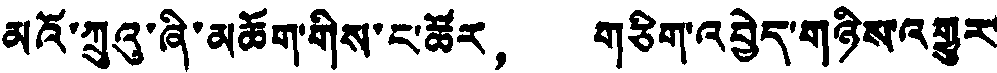མའོ་ཀྲུའུ་ཞི་མཆོག་གིས་ང་ཚོར， གཅིག་འབྱེད་གཉིས་འགྱུར་
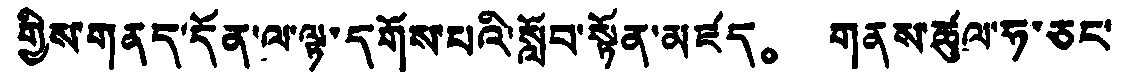གྱིས་གནད་དོན་ལ་ལྟ་དགོས་པའི་སློབ་སྟོན་མཛད。 གནས་ཚུལ་ཧ་ཅང་
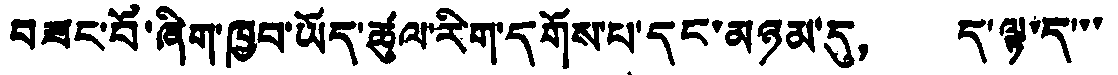བཟང་བོ་ཞིག་ཁྱབ་ཡོད་ཚུལ་རིག་དགོས་པ་དང་མཉམ་དུ， ད་ལྟ་ད་་་
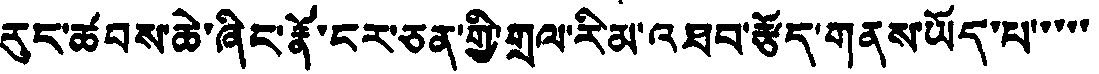རུང་ཚབས་ཆེ་ཞིང་རྣོ་ངར་ཅན་གྱི་གྲལ་རིམ་འཐབ་རྩོད་གནས་ཡོད་པ་་་་་་
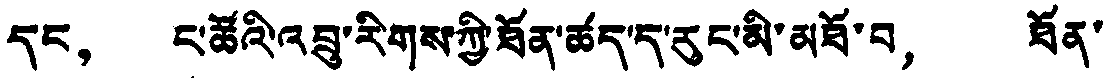དང， ང་ཚོའི་འབྲུ་རིགས་ཀྱི་ཐོན་ཚད་ད་རུང་མི་མཐོ་བ， ཐོན་
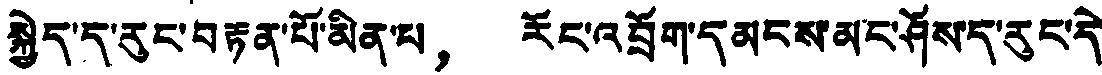སྐྱེད་ད་རུང་བརྟན་པོ་མིན་པ， རོང་འབྲོག་དམངས་མང་ཤོས་ད་རུང་དེ་
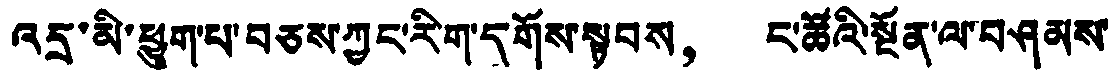འདྲ་མི་ཕྱུག་པ་བཅས་ཀྱང་རིག་དགོས་སྟབས， ང་ཚོའི་སྔོན་ལ་བཤམས་
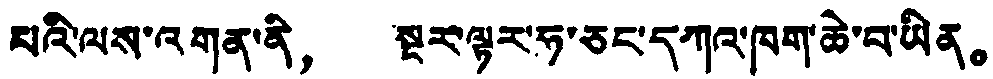པའི་ལས་འགན་ནི， སྔར་ལྟར་ཧ་ཅང་དཀའ་ཁག་ཆེ་བ་ཡིན。
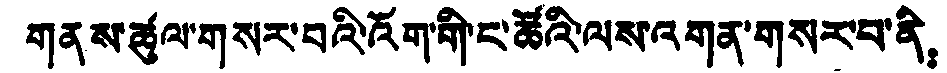གནས་ཚུལ་གསར་བའི་འོག་གི་ང་ཚོའི་ལས་འགན་གསར་བ་ནི：
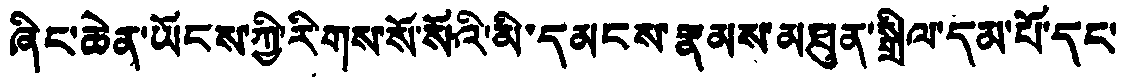ཞིང་ཆེན་ཡོངས་ཀྱི་རི་གས་སོ་སོའི་མི་དམངས་རྣམས་མཐུན་སྒྲིལ་དམ་པོ་དང་
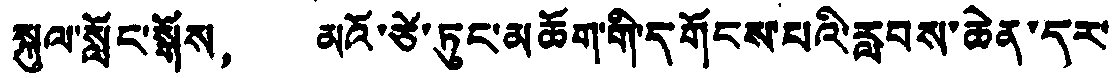སྐུལ་སློང་སྒོས， མའོ་ཙེ་ཏུང་མཆོག་གི་དགོངས་པའི་རླབས་ཆེན་དར་
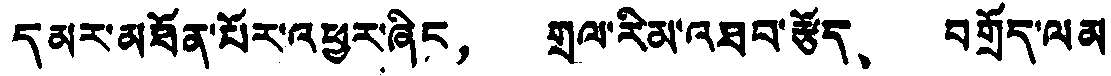དམར་མཐོན་པོར་འཕྱུར་ཞིང， གྲལ་རིམ་འཐབ་རྩོད、 བགྲོད་ལམ
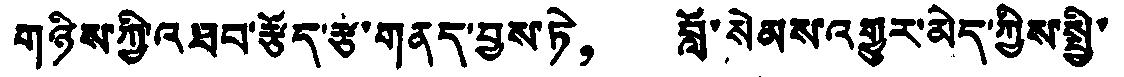གཉིས་ཀྱི་འཐབ་རྩོད་རྩ་གནད་བྱས་ཏེ， བློ་སེམས་འགྱུར་མེད་ཀྱིས་སྤྱི་
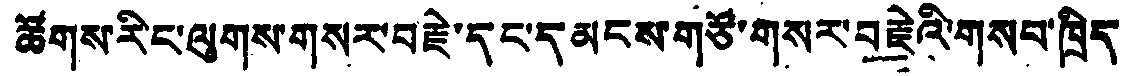ཚོགས་རིང་ལུགས་གསར་བརྗེ་དང་དམངས་གཙོ་གསར་བརྗེའི་གསབ་ཁྲིད
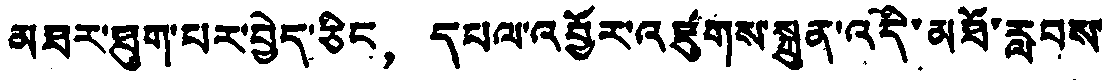མཐར་ཐུག་པར་བྱེད་ཅིང， དཔལ་འབྱོར་འཛུགས་སྐྲུན་འདི་མཐོ་རླབས
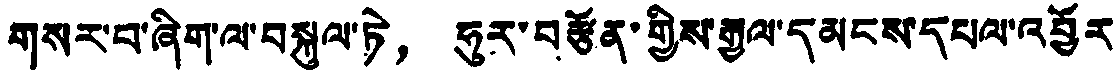གསར་བ་ཞིག་ལ་བསྐུལ་ཏེ， ཧུར་བརྩོན་གྱིས་རྒྱལ་དམངས་དཔལ་འབྱོར
